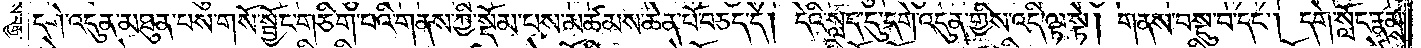དགེ་འདུན་མཐུན་པས་གསོ་སྦྱོང་གཅིག་པའི་གནས་ཀྱི་སྡོམ་པས་མཚམས་ཆེན་པོ་བཅད་དེ། དེའི་སླད་དུ་དགེ་འདུན་གྱིས་འདི་ལྟ་སྟེ། གནས་བསྡུ་བ་དང༌། དགེ་སློང་རྣམས་
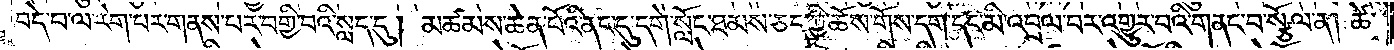བདེ་བ་ལ་རེག་པར་གནས་པར་བགྱི་བའི་སླད་དུ། མཚམས་ཆེན་པོའི་ནང་དུ་དགེ་སློང་ཐམས་ཅད་ཀྱི་ཆོས་གོས་དག་དང་མི་འབྲལ་བར་འགྱུར་བའི་གནང་བ་སྩོལ་ན། ཚེ་
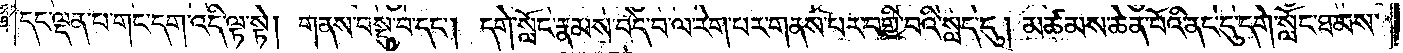དང་ལྡན་པ་གང་དག་འདི་ལྟ་སྟེ། གནས་བསྡུ་བ་དང༌། དགེ་སློང་རྣམས་བདེ་བ་ལ་རེག་པར་གནས་པར་བགྱི་བའི་སླད་དུ༑ མཚམས་ཆེན་པོའི་ནང་དུ་དགེ་སློང་ཐམས་
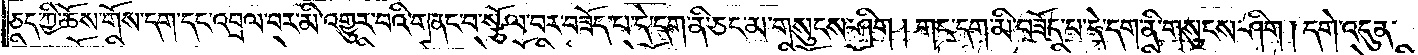ཅད་ཀྱི་ཆོས་གོས་དག་དང་འབྲལ་བར་མི་འགྱུར་བའི་གནང་བ་སྩོལ་བར་བཟོད་པ་དེ་དག་ནི་ཅང་མ་གསུངས་ཤིག །གང་དག་མི་བཟོད་པ་དེ་དག་ནི་གསུངས་ཤིག །དགེ་འདུན་
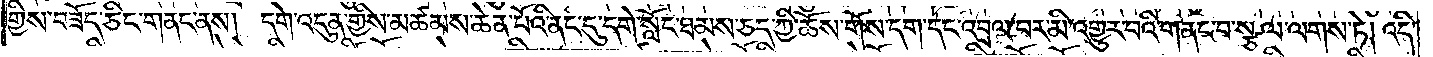གྱིས་བཟོད་ཅིང་གནང་ནས། དགེ་འདུན་གྱིས་མཚམས་ཆེན་པོའི་ནང་དུ་དགེ་སློང་ཐམས་ཅད་ཀྱི་ཆོས་གོས་དག་དང་འབྲལ་བར་མི་འགྱུར་བའི་གནང་བ་སྩལ་ལགས་ཏེ། འདི་
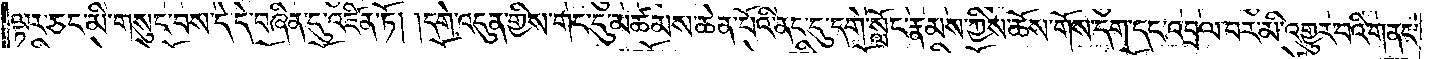ལྟར་ཅང་མི་གསུང་བས་དེ་དེ་བཞིན་དུ་འཛིན་ཏོ། །དགེ་འདུན་གྱིས་གང་དུ་མཚམས་ཆེན་པོའི་ནང་དུ་དགེ་སློང་རྣམས་ཀྱིས་ཆོས་གོས་དག་དང་འབྲལ་བར་མི་འགྱུར་བའི་གནང་
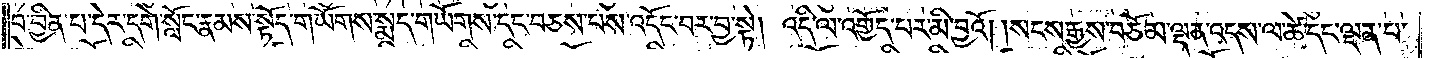བ་བྱིན་པ་དེར་དགེ་སློང་རྣམས་སྟོད་གཡོགས་སྨད་གཡོགས་དང་བཅས་པས་འདོང་བར་བྱ་སྟེ། འདི་ལ་འགྱོད་པར་མི་བྱའོ། །སངས་རྒྱས་བཅོམ་ལྡན་འདས་ལ་ཚེ་དང་ལྡན་པ་
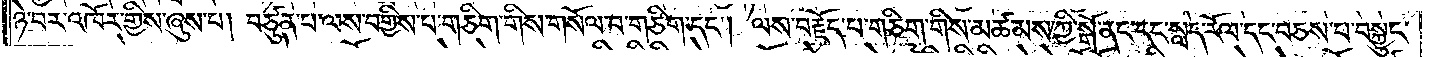ཉེ་བར་འཁོར་གྱིས་ཞུས་པ། བཙུན་པ་ལས་བགྱིས་པ་གཅིག་གིས་གསོལ་བ་གཅིག་དང༌། ལས་བརྗོད་པ་གཅིག་གིས་མཚམས་ཀྱི་སྒོ་ནང་དང་སླད་རོལ་དང་བཅས་པ་བསྐྱུང་
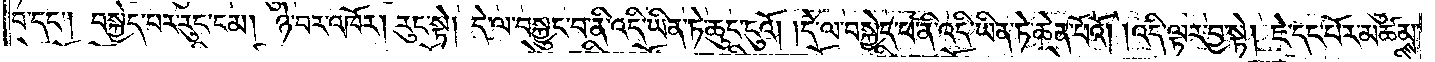བ་དང༌། བསྐྱེད་པར་རུང་ངམ། ཉེ་བར་འཁོར། རུང་སྟེ། དེ་ལ་བསྐྱུང་བ་ནི་འདི་ཡིན་ཏེ་ཆུང་ངུའོ། །དེ་ལ་བསྐྱེད་པ་ནི་འདི་ཡིན་ཏེ་ཆེན་པོའོ། །འདི་ལྟར་བྱ་སྟེ། ཇེ་དང་པོར་མཚམས་
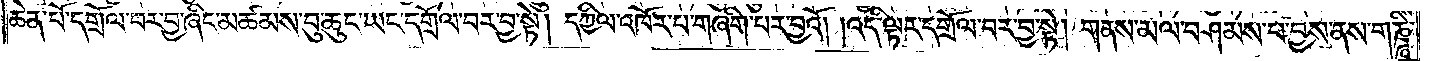ཆེན་པོ་དགྲོལ་བར་བྱ་ཞིང་མཚམས་བུ་ཆུང་ཡང་དགྲོལ་བར་བྱ་སྟེ། དཀྱིལ་འཁོར་བ་གཞིག་པར་བྱའོ། །འདི་ལྟར་དགྲོལ་བར་བྱ་སྟེ། གནས་མལ་བཤམས་བ་བྱས་ནས་གཎྜཱི་
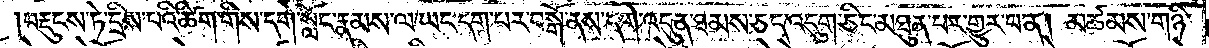བརྡུངས་ཏེ་དྲིས་པའི་ཚིག་གིས་དགེ་སློང་རྣམས་ལ་ཡང་དག་པར་བསྒོ་ནས་དགེ་འདུན་ཐམས་ཅད་འདུག་ཅིང་མཐུན་པར་གྱུར་པ་ན། མཚམས་གཉི་
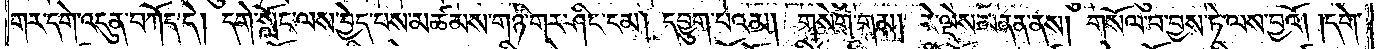གར་དགེ་འདུན་བཀོད་དེ། དགེ་སློང་ལས་བྱེད་པས་མཚམས་གཉི་གར་ཤིང་ངམ། དབྱུག་པའམ། གསེག་གམ། རེ་ལྡེས་མནན་ནས། གསོལ་བ་བྱས་ཏེ་ལས་བྱའོ། །དགེ་
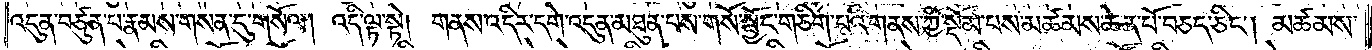འདུན་བཙུན་པ་རྣམས་གསན་དུ་གསོལ། འདི་ལྟ་སྟེ། གནས་འདིར་དགེ་འདུན་མཐུན་པས་གསོ་སྦྱོང་གཅིག་པའི་གནས་ཀྱི་སྡོམ་པས་མཚམས་ཆེན་པོ་བཅད་ཅིང༌། མཚམས་
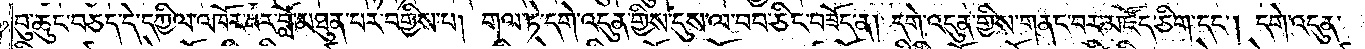བུ་ཆུང་བཅད་དེ་དཀྱིལ་འཁོར་བར་བློ་མཐུན་པར་བགྱིས་པ། གལ་ཏེ་དགེ་འདུན་གྱིས་དུས་ལ་བབ་ཅིང་བཟོད་ན། དགེ་འདུན་གྱིས་གནང་བར་མཛོད་ཅིག་དང༌། དགེ་འདུན་
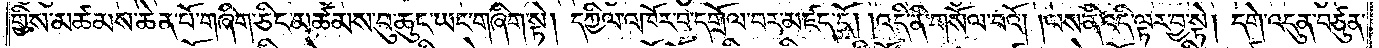གྱིས་མཚམས་ཆེན་པོ་གཞིག་ཅིང་མཚམས་བུ་ཆུང་ཡང་གཞིག་སྟེ། དཀྱིལ་འཁོར་བ་དགྲོལ་བར་མཛད་དོ། །འདི་ནི་གསོལ་བའོ། །ལས་ནི་འདི་ལྟར་བྱ་སྟེ། དགེ་འདུན་བཙུན་
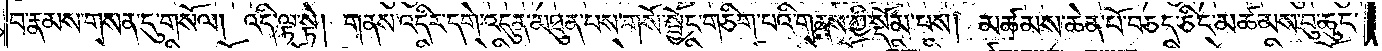བ་རྣམས་གསན་དུ་གསོལ། འདི་ལྟ་སྟེ། གནས་འདིར་དགེ་འདུན་མཐུན་པས་གསོ་སྦྱོང་གཅིག་པའི་གནས་ཀྱི་སྡོམ་པས། མཚམས་ཆེན་པོ་བཅད་ཅིང་མཚམས་བུ་ཆུང་
